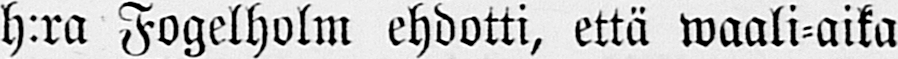h:ra Fogelholm ehdotti, että waali-aika
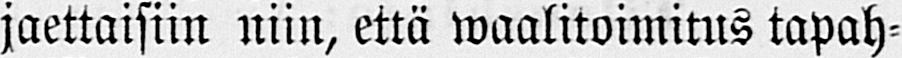jaettaisiin niin, että waalitoimitus tapah-
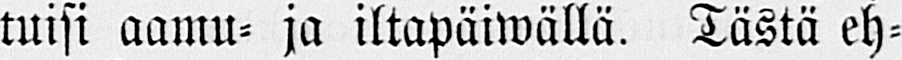tuisi aamu- ja iltapäiwällä. Tästä eh-
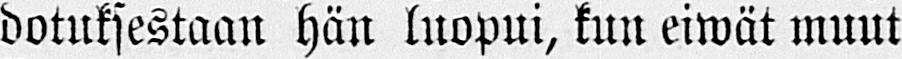dotuksestaan hän luopui, kun eiwät muut
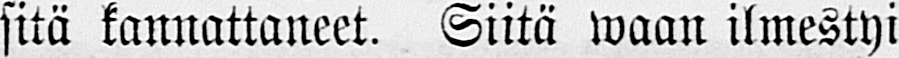sitä kannattaneet. Siitä waan ilmestyi
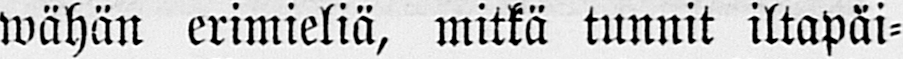wähän erimieliä, mitkä tunnit iltapäi-
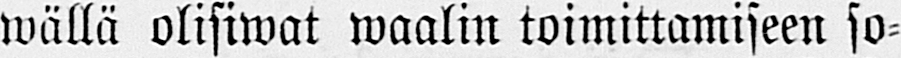wällä olisiwat waalin toimittamiseen so-
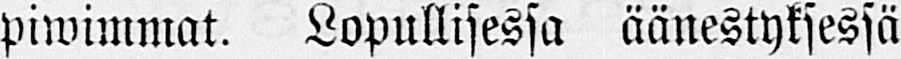piwimmat. Lopullisessa äänestyksessä
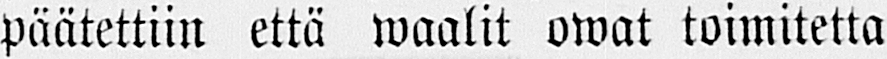päätettiin että waalit owat toimitetta-
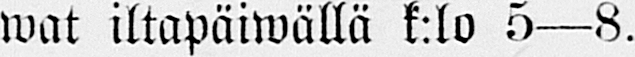wat iltapäiwällä k:lo 5 —8.
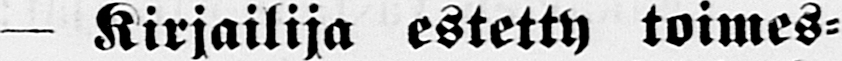— Kirjailija estetty toimes-
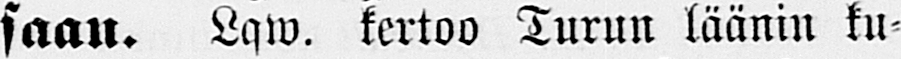saan. Lqw. kertoo Turun läänin ku-
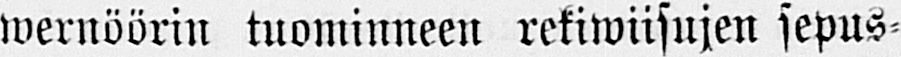wernöörin tuominneen rekiwiisujen sepus-
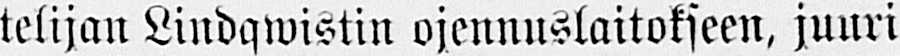telijan Lindqwistin ojennuslaitokseen, juuri
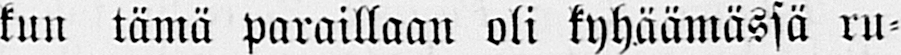kun tämä paraillaan oli kyhäämässä ru-
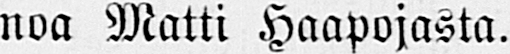noa Matti Haapojasta.
